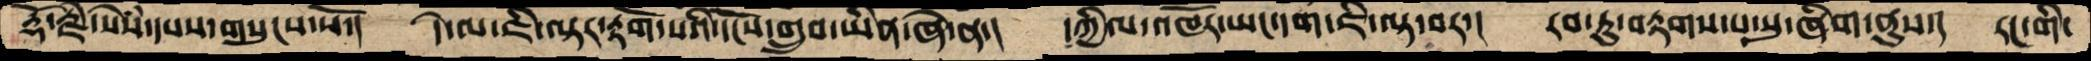རྡོ་རྗེ་སེཾས་དཔས་གསུངས་སོ་།  དེ་ལ་ཇི་ལྟར་རྟོག་པའི་དངོས་གྲུབ་ཡིན་ཞེ་ན་།  དཀྱིལ་འཁོར་ཡང་དག་ཇི་ལྟ་བར་།  རབ་ཏུ་བརྟགས་པ་སུ་ཞིག་ནུས་།  རང་གི་
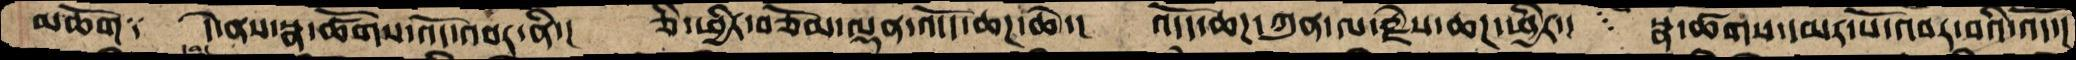མཆོག༑  དེ་ནས་སྣ་ཚོགས་འོད་འབར་ནི་། ཅི་ཕྱིར་བཅོམ་ལྡན་འདོད་ཆཌ་ཆེ་། འདོད་ཆཌ་ཀུན་ལ་རྗེས་ཆཌ་ཕྱིར་།  སྣ་ཚོགས་དམར་པོ་འབར་བའི་འོད་།
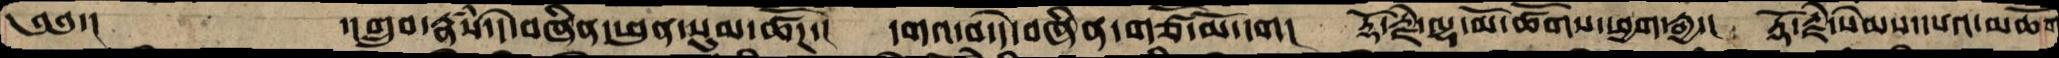༄༅་།      ་།གྲུབ་རྣཾས་དེ་བཞིན་ཕུན་སུམ་ཚོཌ་།  དགའ་བ་དེ་བཞིན་གཙོ་མོ་དག།  རྡོ་རྗེ་ལྷ་མོ་ཚོགས་ཕྱག་རྒྱ་།  རྡོ་རྗེ་སེམས་དཔའ་མཆོག
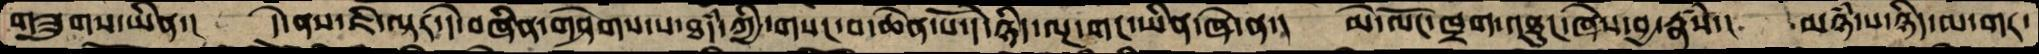གཟུགས་ཡིན་།  དེ་ནས་ཇི་ལྟར་དེ་བཞིན་གཤེགས་པ་ཐདཾ་ཀྱི་གསང་བ་ཆེན་པོ་དེ་ཉིད་ལྔ་གང་ཡིན་ཞེ་ན་།  མེ་ལོང་ཁྲག་འཐུང་ཞེས་བྱ་རྣཾས་།  མཉཾ་པ་ཉིད་ལ་གར་
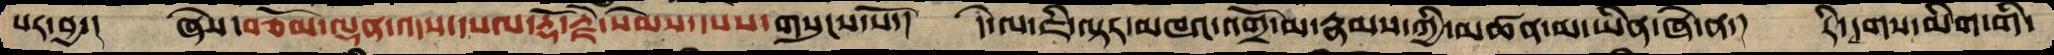པར་བྱ་།  ཞེས་བཅོམ་ལྡན་འདས་དཔལ་རྡོ་རྗེ་སེམས་དཔས་གསུངས་སོ་།  དེ་ལ་ཇི་ལྟར་མཁའ་འགྲོ་མ་རྣམས་ཀྱི་མཚན་མ་ཡིན་ཞེ་ན་།  རི་དྭགས་མིག་གི་
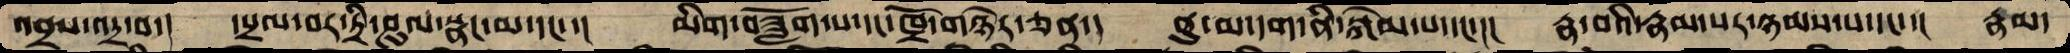འབྲས་འདྲ་བ་།  དཔྲལ་བར་ཏྲི་ཤུལ་སྣང་མ་དང་་།  མིག་བཟློག་པ་དང་ཁྲོ་གཉེར་ཅན་།  ནུ་མ་དག་ནི་སྐེམ་པ་དང་་།  རྣ་བའི་རྣམ་པར་ཉམས་པ་དང་་།  རྣམ་
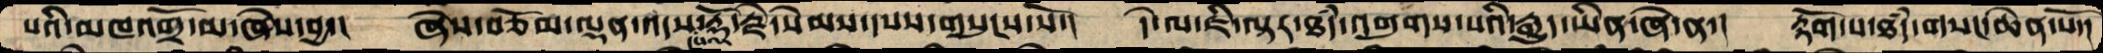པའི་མཁའགྲོ་མ་ཞེས་བྱ་།  ཞེས་བཅོམ་ལྡན་འདས་དཔལ་རྡོ་རྗེ་སེམས་དཔས་གསུངས་སོ་།  དེ་ལ་ཇི་ལྟར་ཐཾད་འགུགས་པའི་རྒྱུད་ཡིན་ཞེ་ན་། རྟོག་པ་ཐཾད་གསང་ཆེན་པོ་།
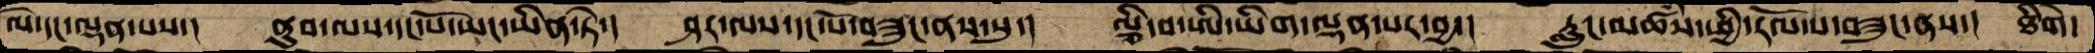ལེ་དང་ལྡན་པས་།  ནུབ་ལས་དང་པོ་ཡང་ཡིན་ཏེ་།  ཤར་ལས་དང་པོ་བཟུང་ནས་སུ་།  ལྕི་བ་ཨི་ཡིག་ལྡན་པར་བྱ་།  རླུང་མཚཾས་ཕྱི་རོལ་པ་བཟུང་ནས་།  ཐིེག་
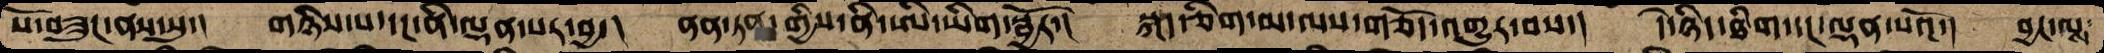པོ་བཟུང་ནས་སུ་། གཉིས་པ་དང་ནི་ལྡན་པར་བྱ་།  ནན་ཏན་གྱིས་ནི་ཨི་ཡིག་སྦྱོར་། སྐད་ཅིག་མ་ལས་གཅོད་འགྱུར་བས་། དེ་ཉིད་ཐིག་དང་ལྡན་པའོ་། བྱང་ལས་
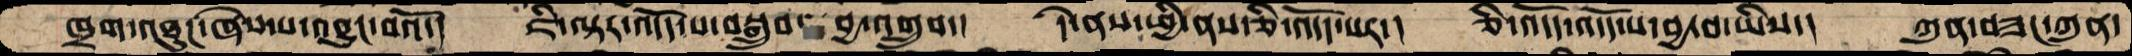ཁྲག་འཐུང་ཞེས་པ་འབྱུང་བའོ་། ཇི་ལྟར་འདོད་པ་བསྒྲུབ་བྱ་འགྲུབ་། དེ་ནས་ཕྱི་ནས་ཅི་འདོད་པར་།  ཅི་འདོད་འདོད་པ་བྱ་བ་ཡིས་། ཀུན་བཟང་ཀུན་
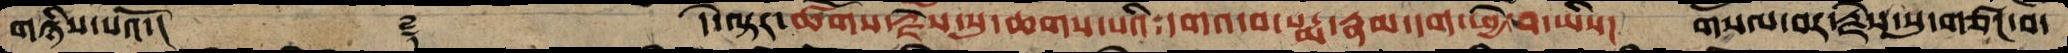གཉིས་པའོ་།      ༈     དེ་ལྟར་ཚོགས་རྗེས་སུ་ཆགས་པའི་དགའ་བ་པདྨ་རྣམ་དག་ཕྱེ་བ་ཡིས།  གསལ་བར་རྗེས་སུ་གཙང་བ་
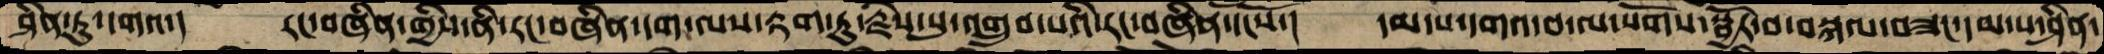ཤིན་ཏུ་དགའ་།  རང་བཞིན་གྱིས་ནི་རང་བཞིན་དག་ལས་རྟག་ཏུ་རྗེས་སུ་འགྲུབ་པའི་རང་བཞིན་དངོས་།  དམ་པ་དགའ་བ་ལ་སོགས་སྦྱོར་བ་བསྐལ་བཟང་དམ་པ་ཤིན་
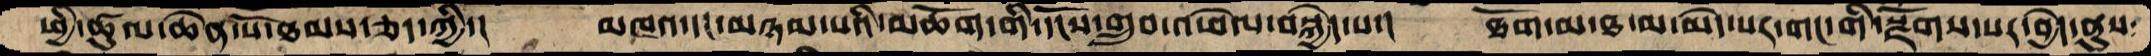ཕྱི་ཚུལ་ཆེན་པོ་ཐམས་ཅད་ཀྱི་།  མཁའ་དང་མཉམ་པའི་མཆོག་གི་དངོས་གྲུབ་འཕེལ་བསྐྱེད་པ་།  ཐོག་མ་ཐ་མ་མེད་པར་གང་གི་སྫོགས་པར་བྱེད་ནུས་
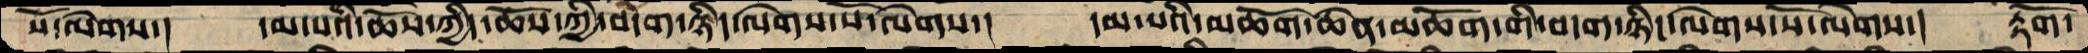སོ་ལེགས་།  དམ་པའི་ཆོས་ཀྱིད་ཆོས་ཀྱི་བདག་ཉིད་ལེགས་སོ་ལེགས་།  དམ་པའི་མཆོག་ཆེན་མཆོག་གི་བདག་ཉིད་ལེགས་སོ་ལེགས་།  རྟོག་
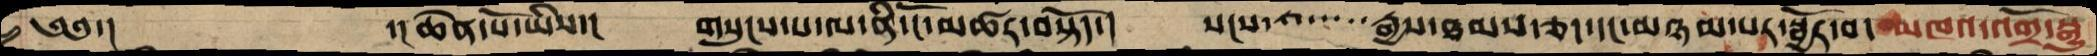༄༅་།     ་།ཆེན་པ་ཡིས་།   གསུངས་པ་ལ་ནི་ངོ་མཚར་བསྟོད་།  སངས་་་་་་་་རྒྱས་ཐམས་ཅད་དང་མཉམ་པར་སྦྱོར་བ་མཁའ་འགྲོ་སྒྱུ་
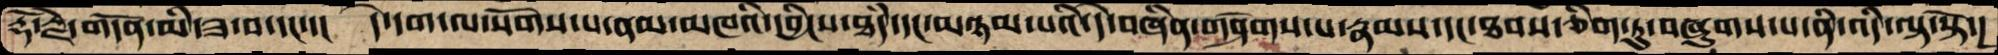རྡོ་རྗེ་གདོན་མི་ཟ་བ་དང་་།  དེ་དག་ལ་སོགས་པ་ནམ་མཁའི་དབྱིངས་ཐཾད་དང་མཉམ་པའི་དེ་བཞིན་གཤེགས་པ་རྣམས་དང་ཐབས་ཅིག་ཏུ་བཞུགས་པ་ནི་འདི་ལྟ་སྟེ་།
